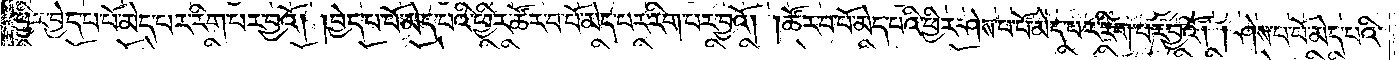ཕྱིར་བྱེད་པ་པོ་མེད་པར་རིག་པར་བྱའོ། །བྱེད་པ་པོ་མེད་པའི་ཕྱིར་ཚོར་བ་པོ་མེད་པར་རིག་པར་བྱའོ། །ཚོར་བ་པོ་མེད་པའི་ཕྱིར་ཤེད་པ་པོ་མེད་པར་རིག་པར་བྱའོ། །ཤེས་པ་པོ་མེད་པའི་
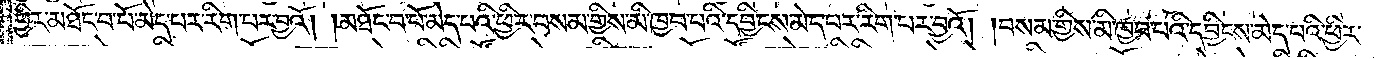ཕྱིར་མཐོང་བ་པོ་མེད་པར་རིག་པར་བྱའོ། །མཐོང་བ་པོ་མེད་པའི་ཕྱིར་བསམ་གྱིས་མི་ཁྱབ་པའི་དབྱིངས་མེད་པར་རིག་པར་བྱའོ། །བསམ་གྱིས་མི་ཁྱབ་པའི་དབྱིངས་མེད་པའི་ཕྱིར་
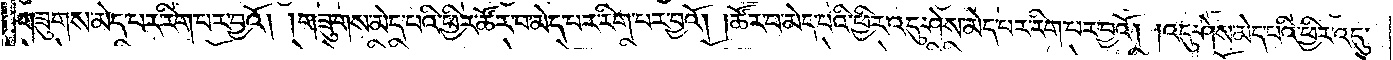གཟུགས་མེད་པར་རིག་པར་བྱའོ། །གཟུགས་མེད་པའི་ཕྱིར་ཚོར་བ་མེད་པར་རིག་པར་བྱའོ། །ཚོར་བ་མེད་པའི་ཕྱིར་འདུ་ཤེས་མེད་པར་རིག་པར་བྱའོ། །འདུ་ཤེས་མེད་པའི་ཕྱིར་འདུ་
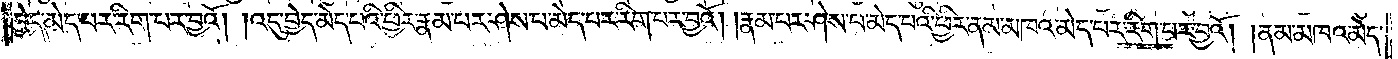བྱེད་མེད་པར་རིག་པར་བྱའོ། །འདུ་བྱེད་མེད་པའི་ཕྱིར་རྣམ་པར་ཤེས་པ་མེད་པར་རིག་པར་བྱའོ། །རྣམ་པར་ཤེས་པ་མེད་པའི་ཕྱིར་ནམ་མཁའ་མེད་པར་རིག་པར་བྱའོ། །ནམ་མཁའ་མེད་
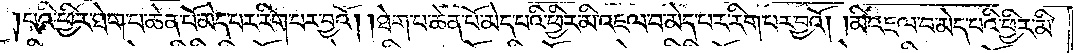པའི་ཕྱིར་ཐེག་པ་ཆེན་པོ་མེད་པར་རིག་པར་བྱའོ། །ཐེག་པ་ཆེན་པོ་མེད་པའི་ཕྱིར་མི་འཇལ་བ་མེད་པར་རིག་པར་བྱའོ། མི་འཇལ་བ་མེད་པའི་ཕྱིར་མི་
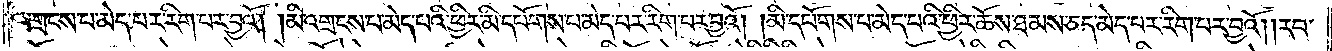འགྲངས་པ་མེད་པར་རིག་པར་བྱའོ། །མི་འགྲངས་པ་མེད་པའི་ཕྱིར་མི་དཔོགས་པ་མེད་པར་རིག་པར་བྱའོ། །མི་དཔོགས་པ་མེད་པའི་ཕྱིར་ཆོས་ཐམས་ཅད་མེད་པར་རིག་པར་བྱའོ། །རབ་
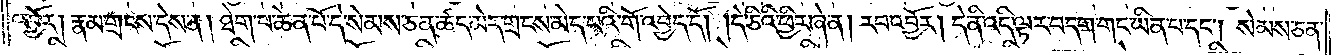འབྱོར། རྣམ་གྲངས་དེས་ན། ཐེག་པ་ཆེན་པོ་དེ་སེམས་ཅན་ཚད་མེད་གྲངས་མེད་པའི་གོ་འབྱེད་དོ། །དེ་ཅིའི་ཕྱིར་ཞེ་ན། རབ་འབྱོར། དེ་ནི་འདི་ལྟར་བདག་གང་ཡིན་པ་དང༌། སེམས་ཅན་
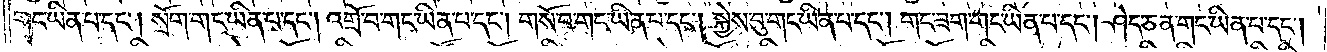གང་ཡིན་པ་དང༌། སྲོག་གང་ཡིན་པ་དང༌། འགྲོ་བ་གང་ཡིན་པ་དང༌། གསོ་བ་གང་ཡིན་པ་དང༌། སྐྱེས་བུ་གང་ཡིན་པ་དང༌། གང་ཟག་གང་ཡིན་པ་དང༌། ཤེད་ཅན་གང་ཡིན་པ་དང༌།
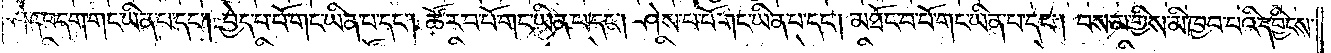ཤེད་བདག་གང་ཡིན་པ་དང༌། བྱེད་པ་པོ་གང་ཡིན་པ་དང༌། ཚོར་བ་པོ་གང་ཡིན་པ་དང༌། ཤེས་པ་པོ་གང་ཡིན་པ་དང༌། མཐོང་བ་པོ་གང་ཡིན་པ་དང༌། བསམ་གྱིས་མི་ཁྱབ་པའི་དབྱིངས་
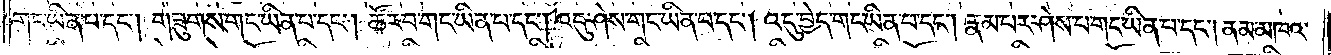གང་ཡིན་པ་དང༌། གཟུགས་གང་ཡིན་པ་དང༌། ཚོར་བ་གང་ཡིན་པ་དང༌། འདུ་ཤེས་གང་ཡིན་པ་དང༌། འདུ་བྱེད་གང་ཡིན་པ་དང༌། རྣམ་པར་ཤེས་པ་གང་ཡིན་པ་དང༌། ནམ་མཁའ་
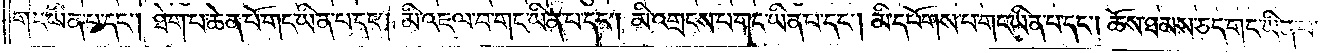གང་ཡིན་པ་དང༌། ཐེག་པ་ཆེན་པོ་གང་ཡིན་པ་དང༌། མི་འཇལ་བ་གང་ཡིན་པ་དང༌། མི་འགྲངས་པ་གང་ཡིན་པ་དང༌། མི་དཔོགས་པ་གང་ཡིན་པ་དང༌། ཆོས་ཐམས་ཅད་གང་ཡིན་པ་
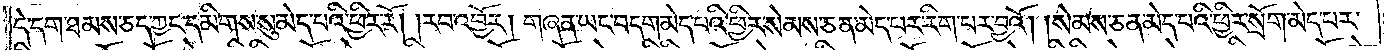དེ་དག་ཐམས་ཅད་ཀྱང་དམིགས་སུ་མེད་པའི་ཕྱིར་རོ། །རབ་འབྱོར། གཞན་ཡང་བདག་མེད་པའི་ཕྱིར་སེམས་ཅན་མེད་པར་རིག་པར་བྱའོ། །སེམས་ཅན་མེད་པའི་ཕྱིར་སྲོག་མེད་པར་
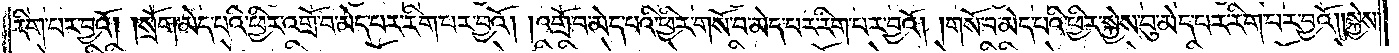རིག་པར་བྱའོ། །སྲོག་མེད་པའི་ཕྱིར་འགྲོ་བ་མེད་པར་རིག་པར་བྱའོ། །འགྲོ་བ་མེད་པའི་ཕྱིར་གསོ་བ་མེད་པར་རིག་པར་བྱའོ། །གསོ་བ་མེད་པའི་ཕྱིར་སྐྱེས་བུ་མེད་པར་རིག་པར་བྱའོ། །སྐྱེས་
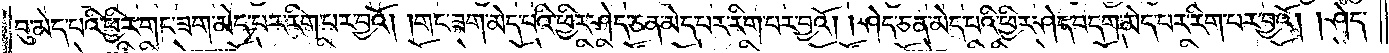བུ་མེད་པའི་ཕྱིར་གང་ཟག་མེད་པར་རིག་པར་བྱའོ། །གང་ཟག་མེད་པའི་ཕྱིར་ཤེད་ཅན་མེད་པར་རིག་པར་བྱའོ། །ཤེད་ཅན་མེད་པའི་ཕྱིར་ཤེད་བདག་མེད་པར་རིག་པར་བྱའོ། །ཤེད་
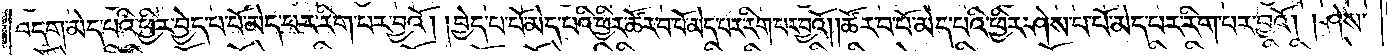བདག་མེད་པའི་ཕྱིར་བྱེད་པ་པོ་མེད་པར་རིག་པར་བྱའོ། །བྱེད་པ་པོ་མེད་པའི་ཕྱིར་ཚོར་བ་པོ་མེད་པར་རིག་པར་བྱའོ། །ཚོར་བ་པོ་མེད་པའི་ཕྱིར་ཤེས་པ་པོ་མེད་པར་རིག་པར་བྱའོ། །ཤེས་
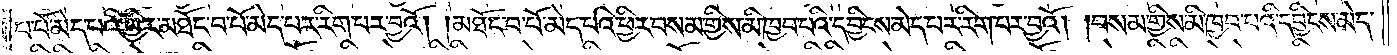པ་པོ་མེད་པའི་ཕྱིར་མཐོང་བ་པོ་མེད་པར་རིག་པར་བྱའོ། །མཐོང་བ་པོ་མེད་པའི་ཕྱིར་བསམ་གྱིས་མི་ཁྱབ་པའི་དབྱིངས་མེད་པར་རིག་པར་བྱའོ། །བསམ་གྱིས་མི་ཁྱབ་པའི་དབྱིངས་མེད་
